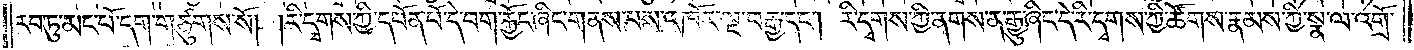རབ་ཏུ་མང་པོ་དག་གཙུགས་སོ། །རི་དྭགས་ཀྱི་དཔོན་པོ་དེ་བག་རྐྱོང་ཞིང་གནས་པས་འཁོར་ལྔ་བརྒྱ་དང༌། རི་དྭགས་ཀྱི་ནགས་ན་རྒྱུ་ཞིང་དེ་རི་དྭགས་ཀྱི་ཚོགས་རྣམས་ཀྱི་སྣ་ལ་འགྲོ་
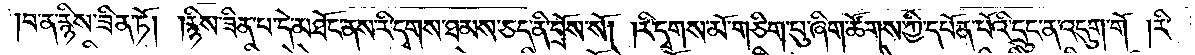བ་ན་རྙིས་ཟིན་ཏོ། །རྙིས་ཟིན་པ་དེ་མཐོང་ནས་རི་དྭགས་ཐམས་ཅད་ནི་བྲོས་སོ། །རི་དྭགས་མོ་གཅིག་པུ་ཞིག་ཚོགས་ཀྱི་དཔོན་པོའི་དྲུང་ན་འདུག་གོ །རི་
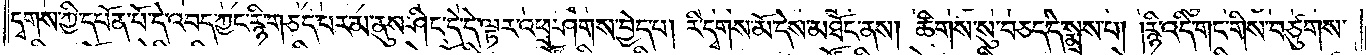དྭགས་ཀྱི་དཔོན་པོ་དེ་འབད་ཀྱང་རྙི་གཅད་པར་མ་ནུས་ཤིང་དེ་དེ་ལྟར་འཕྲ་ཤགས་བྱེད་པ། རི་དྭགས་མོ་དེས་མཐོང་ནས། ཚིགས་སུ་བཅད་དེ་སྨྲས་པ། །རྙི་འདི་གང་གིས་བཙུགས་
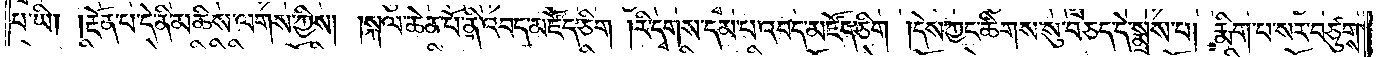པ་ཡི། །རྔོན་པ་དེ་ནི་མཆིས་ལགས་ཀྱིས། །སྐལ་ཆེན་པོ་ནི་འབད་མཛོད་ཅིག །རི་དྭགས་དམ་པ་འབད་མཛོད་ཅིག །དེས་ཀྱང་ཚིགས་སུ་བཅད་དེ་སྨྲས་པ། རྨིག་པ་སར་བཙུགས་
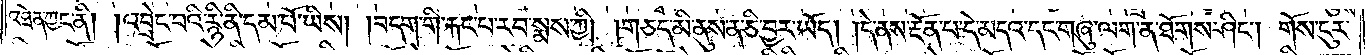འཐེན་ཀྱང་ནི། །འབྲེང་བའི་རྙི་ནི་དམ་པོ་ཡིས། །བདག་གི་རྐང་པ་རབ་སྨས་ཀྱི། །གཅད་མི་ནུས་ན་ཅི་བྱར་ཡོད། །དེ་ནས་རྔོན་པ་དེ་མདའ་དང་གཞུ་ལག་ན་ཐོགས་ཤིང༌། གོས་ངུར་
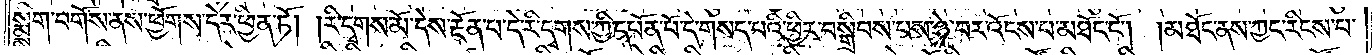སྨྲིག་བགོས་ནས་ཕྱོགས་དེར་ཕྱིན་ཏོ། །རི་དྭགས་མོ་དེས་རྔོན་པ་དེ་རི་དྭགས་ཀྱི་དཔོན་པོ་དེ་གསད་པའི་ཕྱིར་བསྒྲིབས་པས་ཉེ་བར་འོངས་པ་མཐོང་ངོ༌། །མཐོང་ནས་ཀྱང་རིངས་པ་
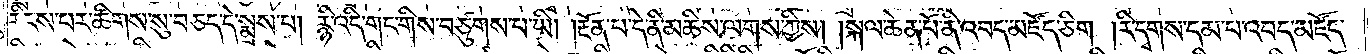རིངས་པར་ཚིགས་སུ་བཅད་དེ་སྨྲས་པ། རྙི་འདི་གང་གིས་བཙུགས་པ་ཡི། །རྔོན་པ་དེ་ནི་མཆིས་ལགས་ཀྱིས། །སྐལ་ཆེན་པོ་ནི་འབད་མཛོད་ཅིག །རི་དྭགས་དམ་པ་འབད་མཛོད་
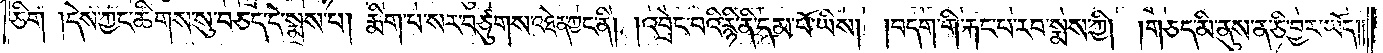ཅིག །དེས་ཀྱང་ཚིགས་སུ་བཅད་དེ་སྨྲས་པ། རྨིག་པ་སར་བཙུགས་འཐེན་ཀྱང་ནི། །འབྲེང་བའི་རྙི་ནི་དམ་པོ་ཡིས། །བདག་གི་རྐང་པ་རབ་སྨས་ཀྱི། །གཅད་མི་ནུས་ན་ཅི་བྱར་ཡོད༎
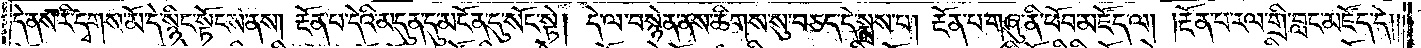དེ་ནས་རི་དྭགས་མོ་དེ་སྙིང་སྟོངས་ནས། རྔོན་པོ་དེའི་མདུན་དུ་མངོན་དུ་སོང་སྟེ། དེ་ལ་བསྙེན་ནས་ཚིགས་སུ་བཅད་དེ་སྨྲས་པ། རྔོན་པ་གཞུ་ནི་ཕོབ་མཛོད་ལ། །རྔོན་པ་རལ་གྲི་བླང་མཛོད་དེ༎
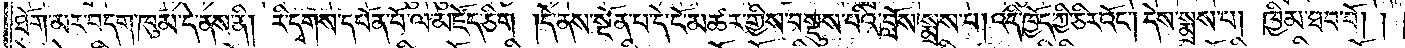ཐོག་མར་བདག་ཁུམ་དེ་ནས་ནི། རི་དྭགས་དཔོན་པོ་ལ་མཛོད་ཅིག །དེ་ནས་སྔོན་པ་དེ་ངོ་མཚར་གྱིས་བསྡུས་པའི་བློས་སྨྲས་པ། འདི་ཁྱོད་ཀྱི་ཅིར་འོང༌། དེས་སྨྲས་པ། ཁྱིམ་ཐབ་བོ༎
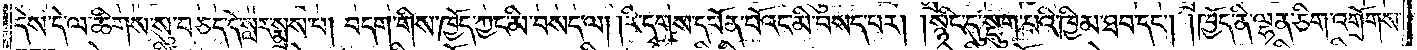དེས་དེ་ལ་ཚིགས་སུ་བཅད་དེ་སླར་སྨྲས་པ། བདག་གིས་ཁྱོད་ཀྱང་མི་བསད་ལ། །རི་དྭགས་དཔོན་པོའང་མི་བསད་པར། །སྙིང་དུ་སྡུག་པའི་ཁྱིམ་ཐབ་དང༌། །ཁྱོད་ནི་ལྷན་ཅིག་འགྲོགས་
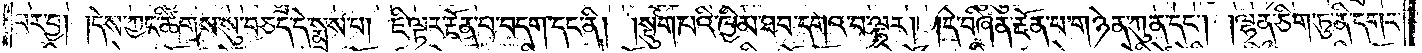པར་བྱ། །དེས་ཀྱང་ཚིགས་སུ་བཅད་དེ་སྨྲས་པ། ཇི་ལྟར་རྔོན་པ་བདག་དང་ནི། །སྡུག་པའི་ཁྱིམ་ཐབ་དགའ་བ་ལྟར། །དེ་བཞིན་རྔོན་པ་གཉེན་ཀུན་དང༌། །ལྷན་ཅིག་ཏུ་ནི་དགར་
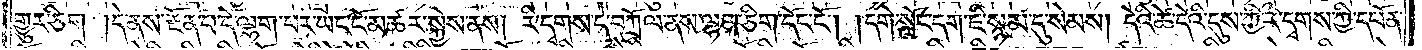གྱུར་ཅིག །དེ་ནས་རྔོན་པ་དེ་ལྷག་པར་ཡང་ངོ་མཚར་སྐྱེས་ནས། རི་དྭགས་དེ་བཀྲོལ་ནས་ལྷན་ཅིག་དོང་ངོ༌། །དགེ་སློང་དག་ཇི་སྙམ་དུ་སེམས། དེའི་ཚེ་དེའི་དུས་ཀྱི་རི་དྭགས་ཀྱི་དཔོན་
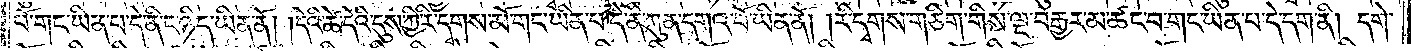པོ་གང་ཡིན་པ་དེ་ནི་ང་ཉིད་ཡིན་ནོ། །དེའི་ཚེ་དེའི་དུས་ཀྱི་རི་དྭགས་མོ་གང་ཡིན་པ་དེ་ནི་ཀུན་དགའ་བོ་ཡིན་ནོ། །རི་དྭགས་གཅིག་གིས་ལྔ་བརྒྱར་མ་ཚང་བ་གང་ཡིན་པ་དེ་དག་ནི། དགེ་
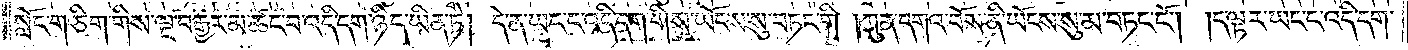སློང་གཅིག་གིས་ལྔ་བརྒྱར་མ་ཚང་བ་འདི་དག་ཉིད་ཡིན་ཏེ། དེ་ན་ཡང་ང་འདི་དག་གིས་ཡོངས་སུ་བཏང་གི །ཀུན་དགའ་བོས་ནི་ཡོངས་སུ་མ་བཏང་ངོ༌། །ད་ལྟར་ཡང་ང་འདི་དག་
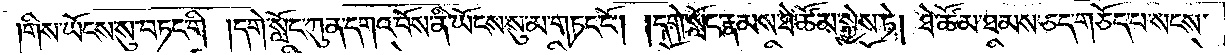།གིས་ཡོངས་སུ་བཏང་གི །དགེ་སློང་ཀུན་དགའ་བོས་ནི་ཡོངས་སུ་མ་གཏང་ངོ༌། །དགེ་སློང་རྣམས་ཐེ་ཚོམ་སྐྱེས་ཏེ། ཐེ་ཚོམ་ཐམས་ཅད་གཅོད་པ་སངས་
